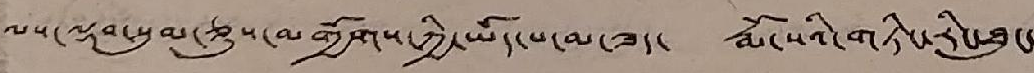ལས་ལྡབ་སུམ་ཅུས་མགྱོགས་ཀྱི་ཡོད་པ་མ་ཟད་ རྨོ་སའི་གཏིང་རིང་ཐུང་་
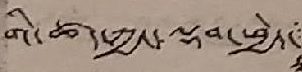གི་ཚད་ཀྱང་ལྡབ་ཕྱེད་
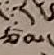ཙམ་
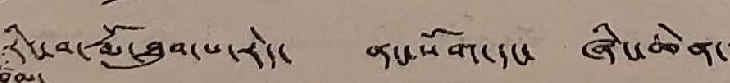རིང་བ་རྨོ་ཐུབ་པ་རེད་ ནང་སོག་དང་ ཞིང་ཆེན་་་
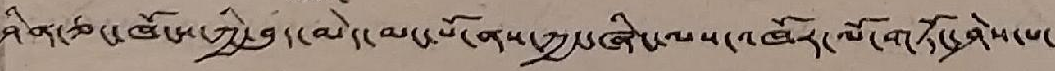ཤིན་ཅང་ཁོངས་ཀྱི་ཁོངས་ཀྱི་བུད་མེད་མང་པོ་ནས་ཀྱང་ཞིང་ལས་འཁོར་ལོ་གཏོང་ཤེས་པ་
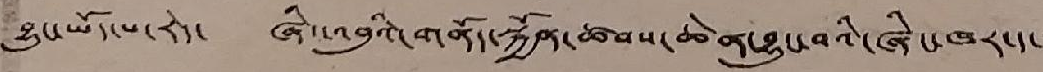བྱུང་ཡོད་པ་རེད་ ཞིང་འབུའི་གནོད་སྐྱོན་ཚབས་ཆེན་བྱུང་བའི་ཞིང་ཁར་ད་་་
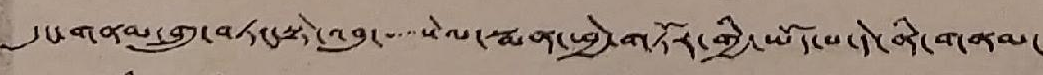དུང་གནམ་གྲུ་བཏང་སྟེ་འབུ་་་་་སེལ་སྨན་ཕྱེ་གཏོར་གྱི་ཡོད་པ་དེ་ནི་གནམ་
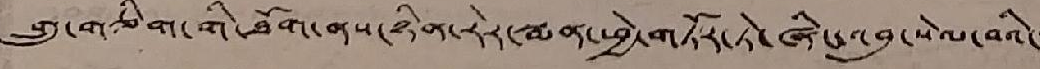གྲུ་གཅིག་གི་ཐོག་ནས་ཉིན་རེར་སྨན་ཕྱེ་གཏོར་ཏེ་ཞིང་འབུ་སེལ་བའི་་་
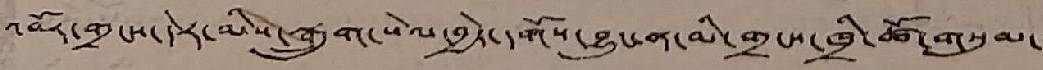འབོར་གྲངས་དེར་མིས་སྒྲུག་སེལ་བྱེད་དགོས་བྱུང་ན་མི་གྲངས་ཁྲི་ཚོ་གསུམ་་་
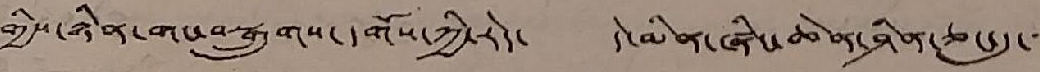གྱིས་ཉིན་གང་བསྒྲུགས་དགོས་ཀྱི་རེད་ དེ་མིན་ཞིང་ཆེན་ཤིན་ཅང་དུ་
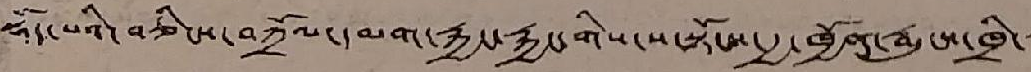སྡོད་པའི་བཅིངས་བཀྲོལ་དམག་རྐྱང་རྐྱང་གིས་ས་སྟོངས་རྒྱ་ཁྱོན་རྨུངས་ཁྲི་་་
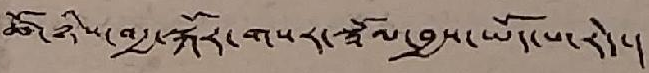ཚོ་ཉིས་བརྒྱ་སྐོར་གསར་སྒྲོལ་བྱས་ཡོད་པ་རེད་།
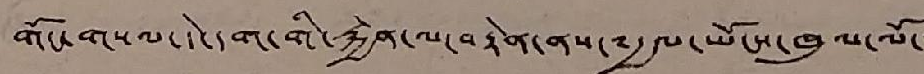གོང་གསལ་དེ་དག་གི་རྐྱེན་ལ་བརྟེན་ནས་༸རྒྱལ་ཡོངས་ཁུལ་ལོ་་
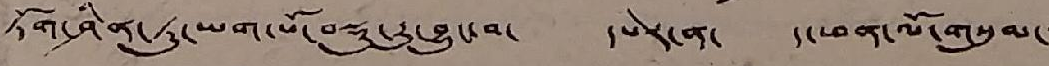ཏོག་ཤིན་ཏུ་ཡག་པོ་བསྡུ་རྒྱུ་བྱུང་བ་ དཔེར་ན་ ད་ཕན་ལོ་གསུམ་་
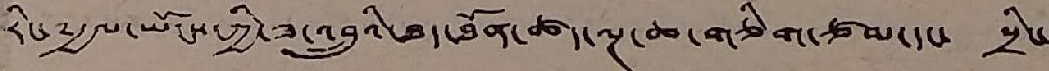རིང་༸རྒྱལ་ཡོངས་ཀྱི་ཟ་འབྲུའི་ཐད་ཐོན་ཚད་ལྔ་ཆ་གཅིག་ཙམ་དང་ སྲིང་
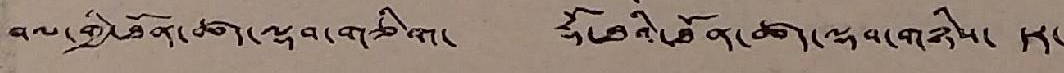བལ་གྱི་ཐོན་ཚད་ལྡབ་གཅིག་ རྡོ་ཐའི་ཐོན་ཚད་ལྡབ་གཉིས་ དར་
